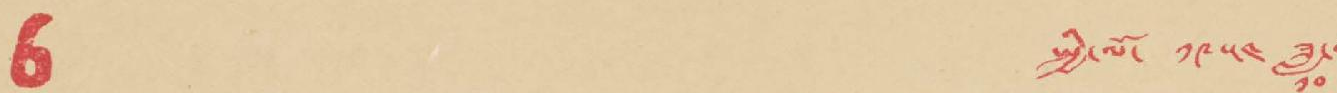6 སྤྱི་ལོ་ ༡༩༥༤ ཟླ་
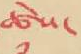ཚེས་
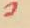༡
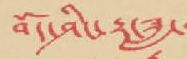བོད་ཤིང་རྟ་ཟླ་
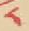༨
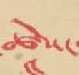ཚེས་
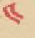༤
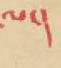ལ་།
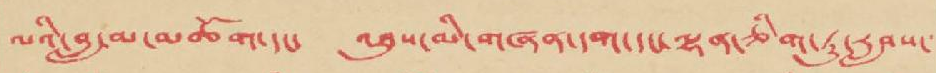ལའི་བླ་མ་མཆོག་དང་ འཐུས་མི་གཞན་དག་དང་ལྷན་ཅིག་ཏུ་རླབས་
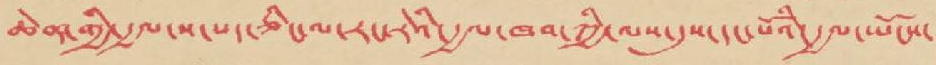ཆེན་གྱི་རྒྱལ་ས་པད་ཅིང་ལ་རང་རེའི་རྒྱལ་ཁབ་ཀྱི་ལས་དུས་དང་པོའི་རྒྱལ་ཡོངས་
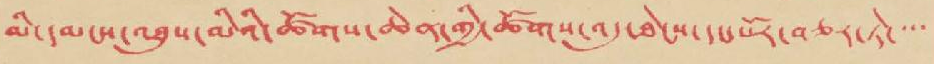མི་དམངས་འཐུས་མིའི་ཚོགས་ཆེན་གྱི་ཚོགས་འདུ་ཐེངས་དང་པོར་བཅར་ཏེ་་་་
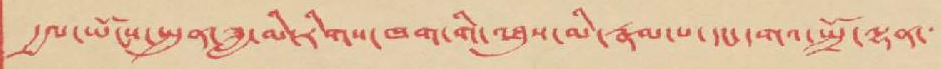རྒྱལ་ཡོངས་སྤུན་ཟླ་མི་རིགས་ཁག་གི་འཐུས་མི་རྣམ་པ་དང་དགའ་སྤྲོ་ལྷན་
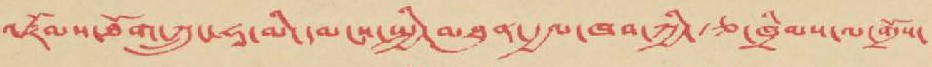འཛོམས་ཐོག་ཀྲུང་ཧཱ་མི་དམངས་སྤྱི་མཐུན་རྒྱལ་ཁབ་ཀྱི་རྩ་ཁྲིམས་ལ་གྲོས་
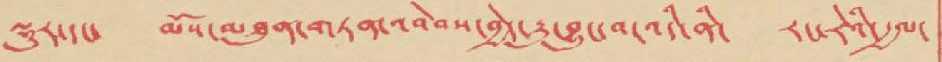སྡུར་དང་ མོས་མཐུན་གཏན་འབེབས་བྱེད་རྒྱུ་བྱུང་བ་འདི་ནི་ རང་རེའི་རྒྱལ་
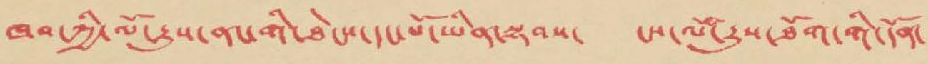ཁབ་ཀྱི་ལོ་རྒྱུས་ནང་གི་ཐེངས་དང་པོ་ཡིན་སྟབས་ ངས་ལོ་རྒྱུས་ཐོག་གི་དོན་
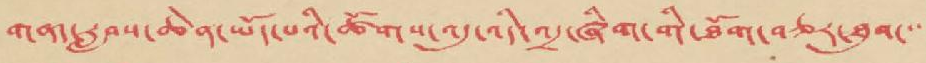གནད་རླབས་ཆེན་ཡོད་པའི་ཚོགས་འདུ་འདི་འདྲ་ཞིག་གི་ཐོག་བཅར་ཐུབ་་་
